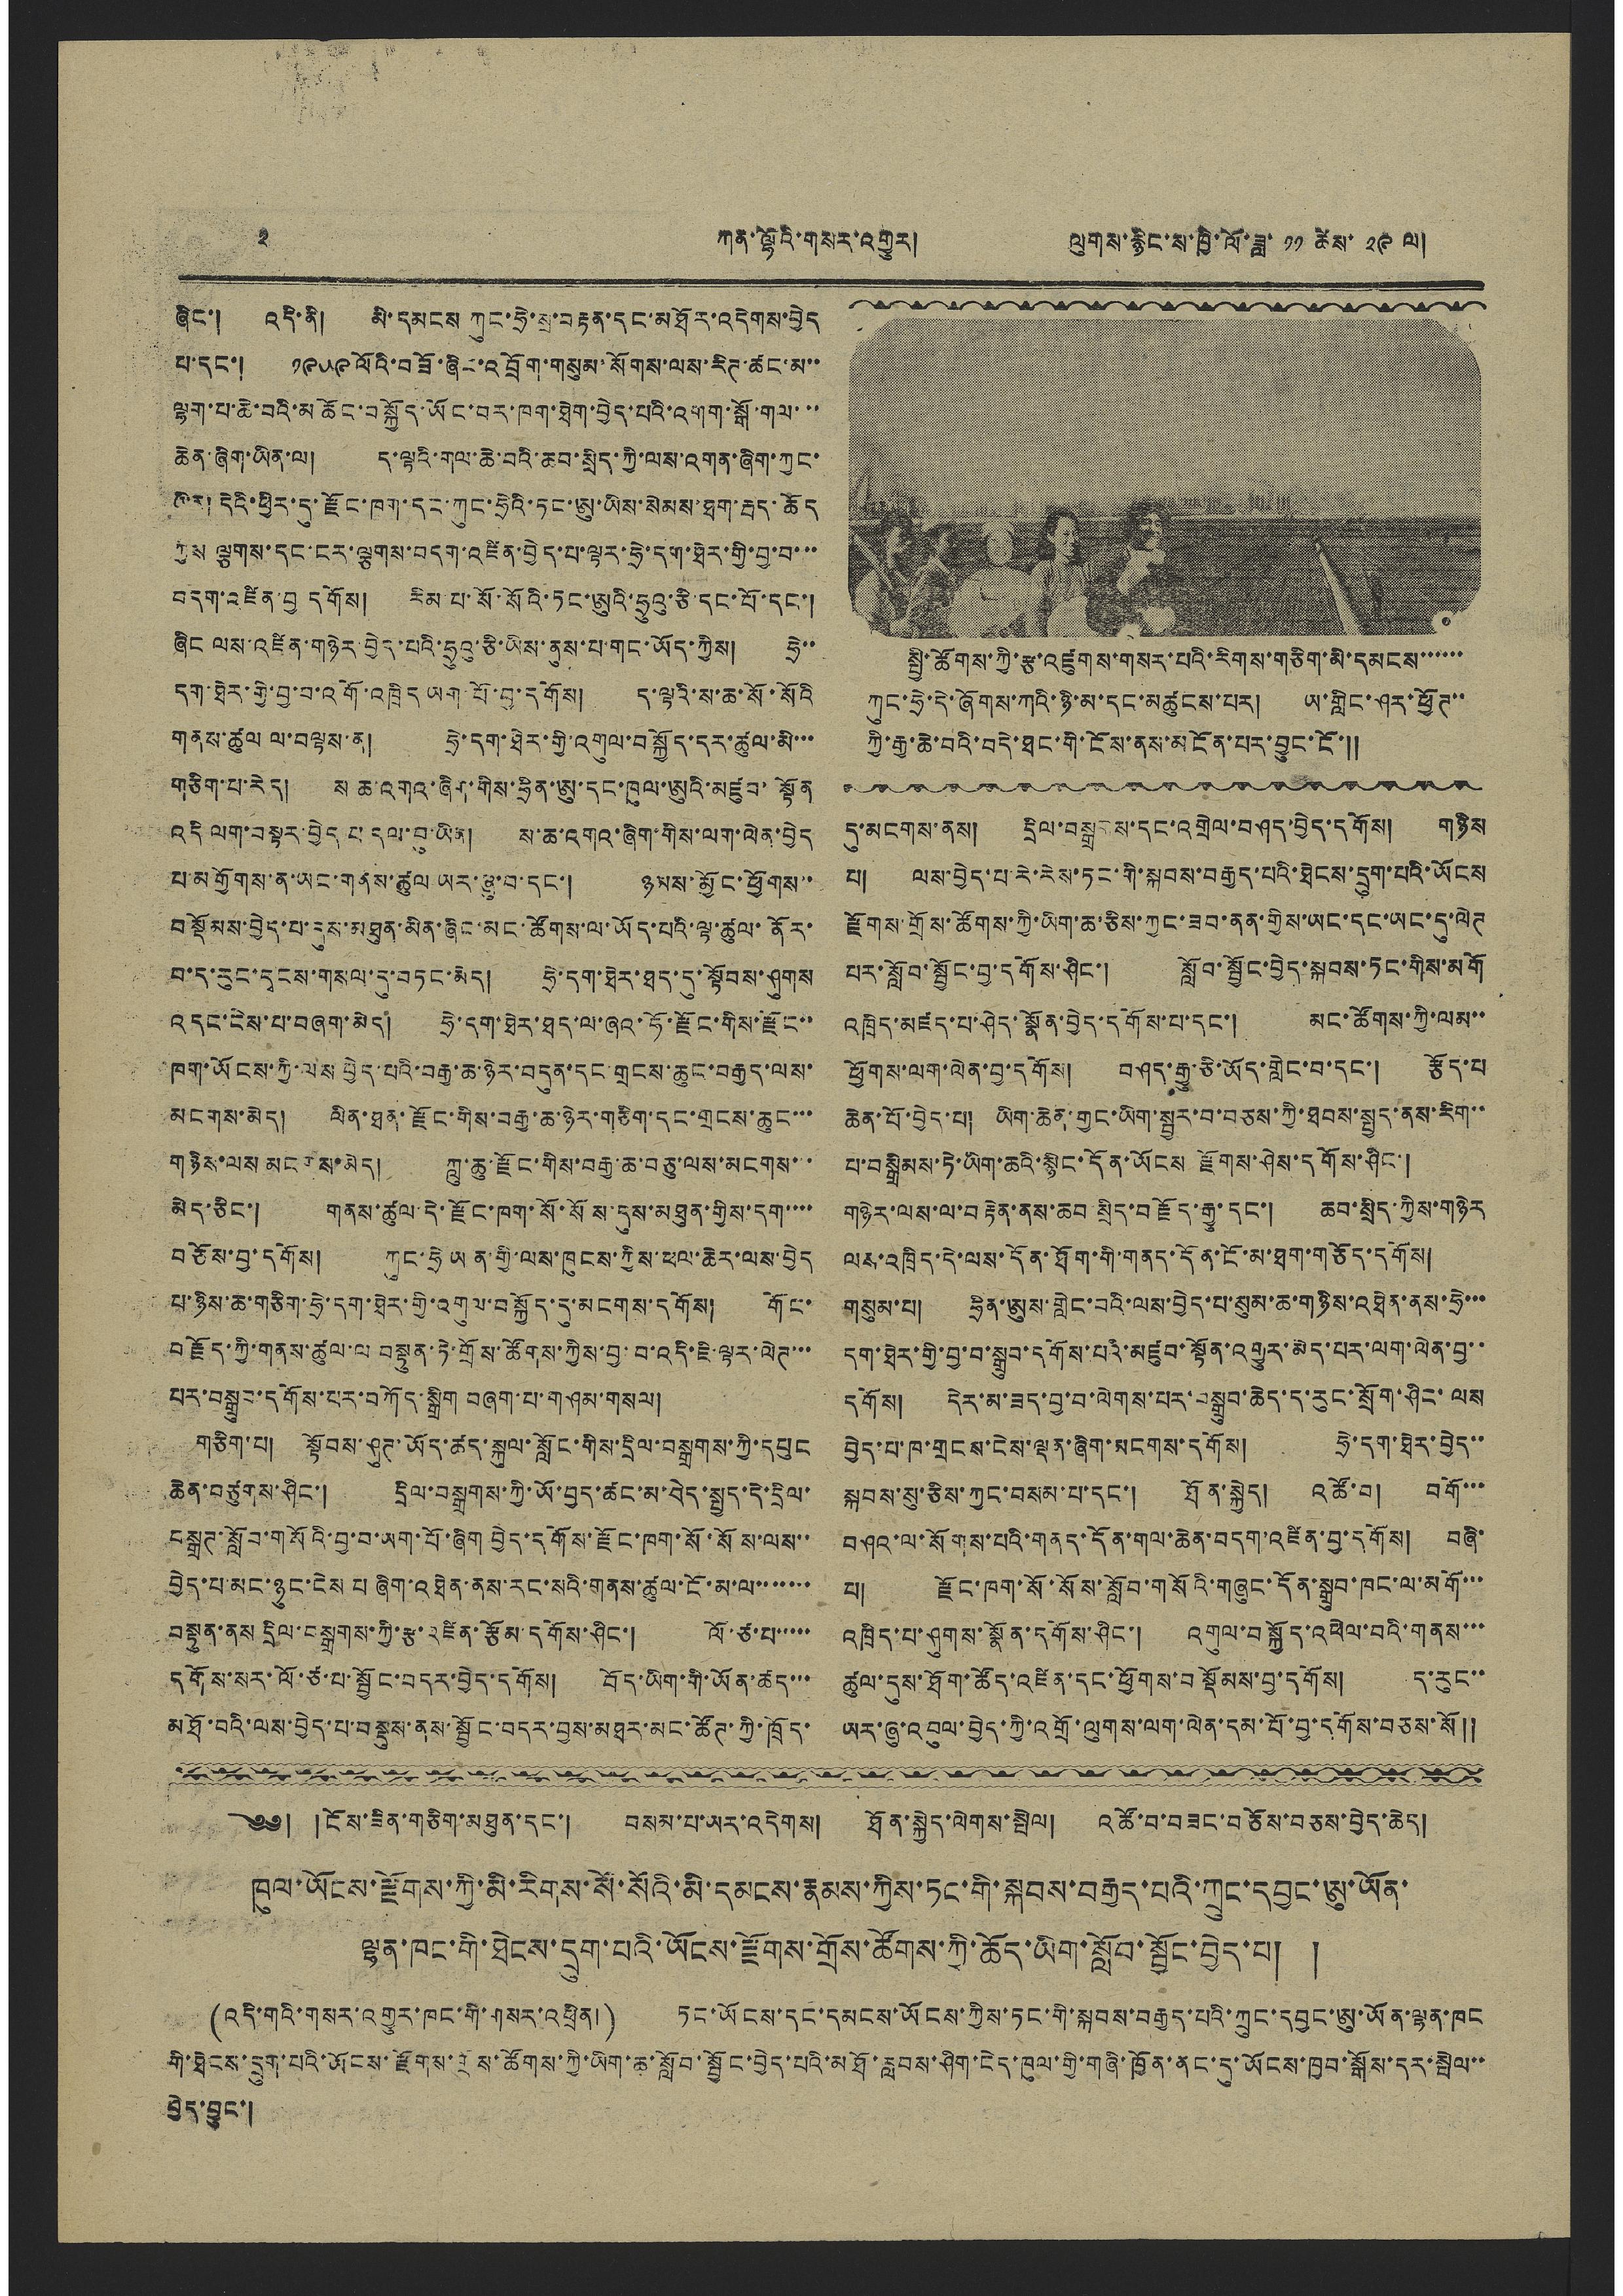༢ ཀན་ལྷོའི་གསར་འགྱུར། ལུགས་རྙིང་ས་ཁྱི་ལོ་ཟླ་ ༡༡ ཚེས་ ༢༩ ལ།
སྤྱི་ཚོགས་ཀྱི་རྩ་འཛུགས་གསར་པའི་རིགས་གཅིག་མི་དམངས་་་་་་
ཀུན་ཧྲེ་དེ་ཞོགས་ཀའི་ཉི་མ་དང་མཚུངས་པར། ཡ་གླིང་ཤར་ཕྱོཊ་་
ཀྱི་རྒྱ་ཆེ་བའི་བདེ་ཐང་གི་ངོས་ནས་མངོན་པར་བྱུང་ངོ་༎
ཞིང་། འདི་ནི། མི་དམངས་ཀུན་ཧྲེ་སྲ་བརྟན་དང་མཐོར་འདེགས་བྱེད
པ་དང་། ༡༩༥༩ ལོའི་བཟོ་ཞིང་འབྲོག་གསུམ་སོགས་ལས་རིཊ་ཚང་མ་་
ལྷག་པ་ཆེ་བའི་མཆོང་བསྐྱོད་ཡོང་བར་ཁག་ཐེག་བྱེད་པའི་འགག་སྒོ་གལ་་་
ཆེན་ཞིག་ཡིན་ལ། ད་ལྟའི་གལ་ཆེ་བའི་ཆབ་སྲིད་ཀྱི་ལས་འགན་ཞིག་ཀྱང་
ཡིན། དེའི་ཕྱིར་དུ་རྫོང་ཁག་དང་ཀུང་ཧྲེའི་ཏང་ཨུ་ཡིས་སེམས་ཐག་རྦད་ཆོད
ཀྱིས་ལྕགས་དང་ངར་ལྕགས་བདག་འཛིན་བྱེད་པ་ལྟར་ཧྲེ་དག་ཐེར་གྱི་བྱ་བ་་་
བདག་འཛིན་བྱ་དགོས། རིམ་པ་སོ་སོའི་ཏང་ཨུའི་ཧྲུའུ་ཅི་དང་པོ་དང་།
ཞིང་ལས་འཛིན་གཉེར་བྱེད་པའི་ཧྲུའུ་ཅི་ཡིས་ནུས་པ་གང་ཡོད་ཀྱིས། ཧྲེ་་
དག་ཐེར་གྱི་བྱ་བ་འགོ་འཁྲིད་ཡག་པོ་བྱ་དགོས། ད་ལྟའི་ས་ཆ་སོ་སོའི
གནས་ཚུལ་ལ་བལྟས་ན། ཧྲེ་དག་ཐེར་གྱི་འགུལ་བསྐྱོད་དར་ཚུལ་མི་་་
གཅིག་པ་རེད། ས་ཆ་འགའ་ཞིག་གིས་ཧྲིན་ཨུ་དང་ཁུལ་ཨུའི་མཛུབ་སྟོན
འདི་ལག་བསྟར་བྱེད་པ་དལ་བུ་ཡིན། ས་ཆ་འགའ་ཞིག་གིས་ལག་ལེན་བྱེད
པ་མགྱོགས་ན་ཡང་གནས་ཚུལ་ཡར་ཞུ་བ་དང་། ཉམས་མྱོང་ཕྱོགས་་
བསྡོམས་བྱེད་པ་དུས་མཐུན་མིན་ཞིང་མང་ཚོགས་ལ་ཡོད་པའི་ལྟ་ཚུལ་ནོར་
བ་ད་རུང་དྭངས་གསལ་དུ་བཏང་མེད། ཧྲེ་དག་ཐེར་ཐད་དུ་སྟོབས་ཤུགས
འདང་ངེས་པ་བཞག་མེད། ཧྲེ་དག་ཐེར་ཐད་ལ་ཞའ་ཧོ་རྫོང་གིས་རྫོང་་
ཁག་ཡོངས་ཀྱི་ལས་བྱེད་པའི་བརྒྱ་ཆ་ཉེར་བདུན་དང་གྲངས་ཆུང་བརྒྱད་ལས་
མངགས་མེད། ལིན་ཐན་རྫོང་གིས་བརྒྱ་ཆ་ཉེར་གཅིག་དང་གྲངས་ཆུང་་་
གཉིས་ལས་མངགས་མེད། ཀླུ་ཆུ་རྫོང་གིས་བརྒྱ་ཆ་བཅུ་ལས་མངགས་་
མེད་ཅིང་། གནས་ཚུལ་དེ་རྫོང་ཁག་སོ་སོས་དུས་མཐུན་གྱིས་དག་་་་
བཅོས་བྱ་དགོས། ཀུང་ཧྲེ་ཡན་གྱི་ལས་ཁུངས་ཀྱིས་ཕལ་ཆེར་ལས་བྱེད
པ་ཉིས་ཆ་གཅིག་ཧྲེ་དག་ཐེར་གྱི་འགུལ་བསྐྱོད་དུ་མངགས་དགོས། གོང་
བརྗོད་ཀྱི་གནས་ཚུལ་ལ བསྟུན་ཏེ་གྲོས་ཚོགས་ཀྱིས་བྱ་བ་འདི་ཇི་ལྟར་ལེཊ་་་
པར་བསྒྲུབ་དགོས་པར་བཀོད་སྒྲིག་བཞག་པ་གཤམ་གསལ།
གཅིག་པ། སྟོབས་ཤུཊ་ཡོད་ཚད་སྐུལ་སློང་གིས་དྲིལ་བསྒྲགས་ཀྱི་དཔུང
ཆེན་བཙུགས་ཤིང་། དྲིལ་བསྒྲགས་ཀྱི་ཡོ་བྱད་ཚང་མ་བེད་སྤྱད་དེ་དྲིལ་
བསྒྲཊ་སློབ་གསོའི་བྱ་བ་ཡག་པོ་ཞིག བྱེད་དགོས་རྫོང་ཁག་སོ་སོས་ལས་་
བྱེད་པ་མང་ཉུང་ངེས པ ཞིག་འཐེན་ནས་རང་སའི་གནས་ཚུལ་ངོ་མ་ལ་་་་་་་
བསྟུན་ནས་དྲིལ་བསྒྲགས་ཀྱི་རྩ་འཛིན་རྩོམ་དགོས་ཤིང་། ལོ་ཙ་པ་་་་་
དགོས་སར་ལོ་ཙ་པ་སྦྱོང་བདར་བྱེད་དགོས། བོད་ཡིག་གི་ཡོན་ཚད་་་
མཐོ་བའི་ལས་བྱེད་པ་བསྡུས་ནས་སྦྱོང་བདར་བྱས་མཐར་མང་ཚོཊ་ཀྱི་ཁྲོད་
དུ་མངགས་ནས། དྲིལ་བསྒྲགས་དང་འགྲེལ་བཤད་བྱེད་དགོས། གཉིས
པ། ལས་བྱེད་པ་རེ་རེས་ཏང་གི་སྐབས་བརྒྱད་པའི་ཐེངས་དྲུག་པའི་ཡོངས
རྫོགས་གྲོས་ཚོགས་ཀྱི་ཡིག་ཆ་ཅིས་ཀྱང་ཟབ་ནན་གྱིས་ཡང་དང་ཡང་དུ་ལེཊ
པར་སློབ་སྦྱོང་བྱ་དགོས་ཤིང་། སློབ་སྦྱོང་བྱེད་སྐབས་ཏང་གིས་མགོ
འཁྲིད་མཛད་པ་ཤེད་སྣོན་བྱེད་དགོས་པ་དང་། མང་ཚོགས་ཀྱི་ལམ་་
ཕྱོགས་ལག་ལེན་བྱ་དགོས། བཤད་རྒྱུ་ཅི་ཡོད་གླེང་བ་དང་། རྩོད་པ
ཆེན་པོ་བྱེད་པ། ཡིག་ཆེན་གྱང་ཡིག་སྦྱར་བ་བཅས་ཀྱི་ཐབས་སྤྱད་ནས་རིག་་
པ་བསྒྲིམས་ཏེ་ཡིག་ཆའི་སྙིང་དོན་ཡོངས རྫོགས་ཤེས་དགོས་ཤིང་།
གཉེར་ལས་ལ་བརྟེན་ནས་ཆབ སྲིད་བརྗོད་རྒྱུ་དང་། ཆབ་སྲིད་ཀྱིས་གཉེར
ལས་འཁྲིད་དེ་ལས་དོན་ཐོག་གི་གནད་དོན་ངོ་མ་ཐག་གཅོད་དགོས།
གསུམ་པ། ཧྲིན་ཨུས་གླེང་བའི་ལས་བྱེད་པ་སུམ་ཆ་གཉིས་འཐེན་ནས་ཧྲེ་་་
དག་ཐེར་གྱི་བྱ་བ་སྒྲུབ་དགོས་པའི་མཛུབ་སྟོན་འགྱུར་མེད་པར་ལག་ལེན་བྱ་་
དགོས། དེར་མ་ཟད་བྱ་བ་ལེགས་པར་བསྒྲུབ་ཆེད་ད་རུང་སྲོག་ཤིང་ལས
བྱེད་པ་ཁ་གྲངས་ངེས་ལྡན་ཞིག་མངགས་དགོས། ཧྲེ་དག་ཐེར་བྱེད་་
སྐབས་སུ་ཅིས་ཀྱང་བསམ་པ་དང་། ཐོན་སྐྱེད། འཚོ་བ། བགོ་་་
བཤའ་ལ་སོགས་པའི་གནད་དོན་གལ་ཆེན་བདག་འཛིན་བྱ་དགོས། བཞི་
པ། རྫོང་ཁག་སོ་སོས་སློབ་གསོའི་གཞུང་དོན་སྒྲུབ་ཁང་ལ་མགོ་་་
འཁྲིད་པ་ཤུགས་སྣོན་དགོས་ཤིང་། འགུལ་བསྐྱོད་འཕེལ་བའི་གནས་་་
ཚུལ་དུས་ཐོག་ཚོད་འཛིན་དང་ཕྱོགས་བསྡོམས་བྱ་དགོས། ད་རུང་་
ཡར་ཞུ་འབུལ་བྱེད་ཀྱི་འགྲོ་ལུགས་ལག་ལེན་དམ་པོ་བྱ་དགོས་བཅས་སོ༎
༄༅། །ངོས་ཟིན་གཅིག་མཐུན་དང་། བསམ་པ་ཡར་འདེགས། ཐོན་སྐྱེད་ལེགས་སྤེལ། འཚོ་བ་བཟང་བཅོས་བཅས་བྱེད་ཆེད།
ཁུལ་ཡོངས་རྫོགས་ཀྱི་མི་རིགས་སོ་སོའི་མི་དམངས་རྣམས་ཀྱིས་ཏང་གི་སྐབས་བརྒྱད་པའི་ཀྲུང་དབྱང་ཨུ་ཡོན་
ལྷན་ཁང་གི་ཐེངས་དྲུག་པའི་ཡོངས་རྫོགས་གྲོས་ཚོགས་ཀྱི་ཆོད་ཡིག་སློབ་སྦྱོང་བྱེད་པ། །
(འདི་གའི་གསར་འགྱུར་ཁང་གི་གསར་འཕྲིན།) ཏང་ཡོངས་དང་དམངས་ཡོངས་ཀྱིས་ཏང་གི་སྐབས་བརྒྱད་པའི་ཀྲུང་དབྱང་ཨུ་ཡོན་ལྷན་ཁང
གི་ཐེངས་དྲུག་པའི་ཡོངས་རྫོགས་གྲོས་ཚོགས་ཀྱི་ཡིག་ཆ་སློབ་སྦྱོང་བྱེད་པའི་མཐོ་རླབས་ཤིག་ངེད་ཁུལ་གྱི་གཞི་ཁྱོན་ནང་དུ་ཡོངས་ཁྱབ་སྒོས་དར་སྤེལ་་
བྱེད་བྱུང་།
